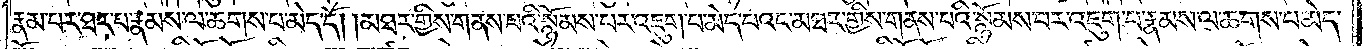རྣམ་པར་ཐར་པ་རྣམས་ལ་ཆགས་པ་མེད་དོ། །མཐར་གྱིས་གནས་པའི་སྙོམས་པར་འཇུག་པ་མེད་པའང་མཐར་གྱིས་གནས་པའི་སྙོམས་པར་འཇུག་པ་རྣམས་ལ་ཆགས་པ་མེད་
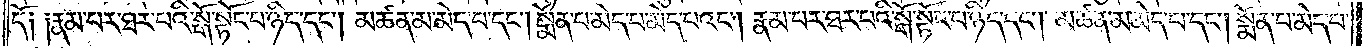དོ༑ ༑རྣམ་པར་ཐར་པའི་སྒོ་སྟོང་པ་ཉིད་དང༌། མཚན་མ་མེད་པ་དང༌། སྨོན་པ་མེད་པ་མེད་པའང༌། རྣམ་པར་ཐར་པའི་སྒོ་སྟོང་པ་ཉིད་དང༌། མཚན་མ་མེད་པ་དང༌། སྨོན་པ་མེད་པ་
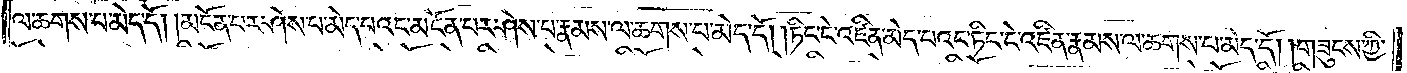ལ་ཆགས་པ་མེད་དོ། །མངོན་པར་ཤེས་པ་མེད་པའང་མངོན་པར་ཤེས་པ་རྣམས་ལ་ཆགས་པ་མེད་དོ། །ཏིང་ངེ་འཛིན་མེད་པའང་ཏིང་དེ་འཛིན་རྣམས་ལ་ཆགས་པ་མེད་དོ། །གཟུངས་ཀྱི་
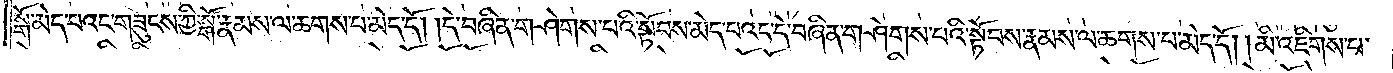སྒོ་མེད་པའང་གཟུངས་ཀྱི་སྒོ་རྣམས་ལ་ཆགས་པ་མེད་དོ། །དེ་བཞིན་གཤེགས་པའི་སྟོབས་མེད་པའང་དེ་བཞིན་གཤེགས་པའི་སྟོབས་རྣམས་ལ་ཆགས་པ་མེད་དོ། །མི་འཇིགས་པ་
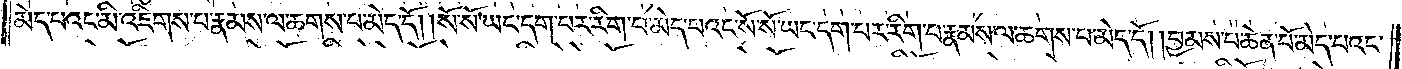མེད་པའང་མི་འཇིགས་པ་རྣམས་ལ་ཆགས་པ་མེད་དོ། །སོ་སོ་ཡང་དག་པར་རིག་པ་མེད་པའང་སོ་སོ་ཡང་དག་པར་རིག་པ་རྣམས་ལ་ཆགས་པ་མེད་དོ། །བྱམས་པ་ཆེན་པོ་མེད་པའང་
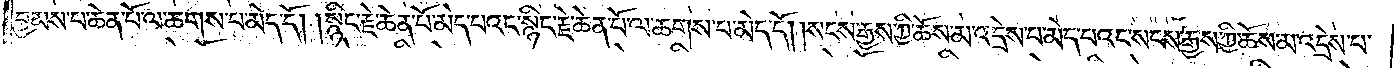བྱམས་པ་ཆེན་པོ་ལ་ཆགས་པ་མེད་དོ། །སྙིང་རྗེ་ཆེན་པོ་མེད་པའང་སྙིང་རྗེ་ཆེན་པོ་ལ་ཆགས་པ་མེད་དོ། །སངས་རྒྱས་ཀྱི་ཆོས་མ་འདྲེས་པ་མེད་པའང་སངས་རྒྱས་ཀྱི་ཆོས་མ་འདྲེས་པ་
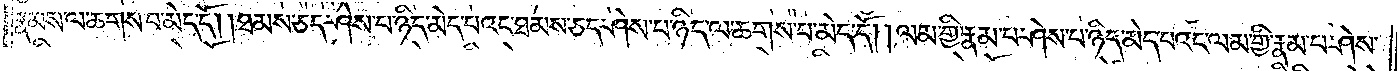རྣམས་ལ་ཆགས་པ་མེད་དོ། །ཐམས་ཅད་ཤེས་པ་ཉིད་མེད་པའང་ཐམས་ཅད་ཤེས་པ་ཉིད་ལ་ཆགས་པ་མེད་དོ། །ལམ་གྱི་རྣམ་པ་ཤེས་པ་ཉིད་མེད་པའང་ལམ་གྱི་རྣམ་པ་ཤེས་
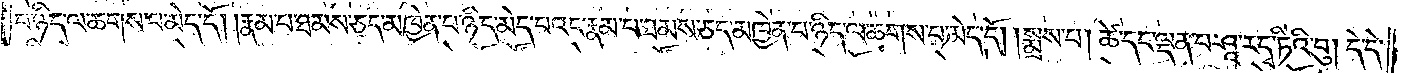པ་ཉིད་ལ་ཆགས་པ་མེད་དོ། །རྣམ་པ་ཐམས་ཅད་མཁྱེན་པ་ཉིད་མེད་པའང་རྣམ་པ་ཐམས་ཅད་མཁྱེན་པ་ཉིད་ལ་ཆགས་པ་མེད་དོ། །སྨྲས་པ། ཚེ་དང་ལྡན་པ་ཤཱ་ར་དྭ་ཏིའི་བུ། དེ་དེ་
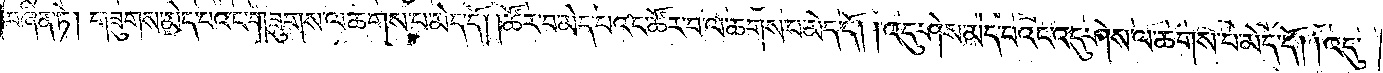བཞིན་ཏེ། གཟུགས་མེད་པའང་གཟུགས་ལ་ཆགས་པ་མེད་དོ། །ཚོར་བ་མེད་པའང་ཚོར་བ་ལ་ཆགས་པ་མེད་དོ། །འདུ་ཤེས་མེད་པའང་འདུ་ཤེས་ལ་ཆགས་པ་མེད་དོ། །འདུ་
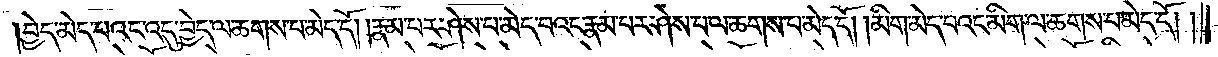བྱེད་མེད་པའང་འདུ་བྱེད་ལ་ཆགས་པ་མེད་དོ། །རྣམ་པར་ཤེས་པ་མེད་པའང་རྣམ་པར་ཤེས་པ་ལ་ཆགས་པ་མེད་དོ། །མིག་མེད་པའང་མིག་ལ་ཆགས་པ་མེད་དོ། །
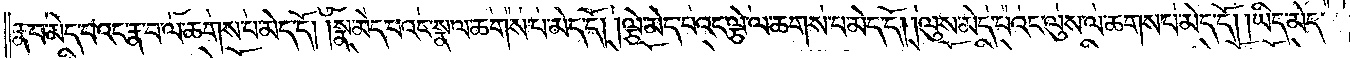རྣ་བ་མེད་པའང་རྣ་བ་ལ་ཆགས་པ་མེད་དོ། །སྣ་མེད་པའང་སྣ་ལ་ཆགས་པ་མེད་དོ། །ལྕེ་མེད་པའང་ལྕེ་ལ་ཆགས་པ་མེད་དོ། །ལུས་མེད་པའང་ལུས་ལ་ཆགས་པ་མེད་དོ། །ཡིད་མེད་
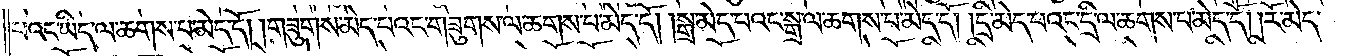པའང་ཡིད་ལ་ཆགས་པ་མེད་དོ། །གཟུགས་མེད་པའང་གཟུགས་ལ་ཆགས་པ་མེད་དོ། །སྒྲ་མེད་པའང་སྒྲ་ལ་ཆགས་པ་མེད་དོ། །དྲི་མེད་པའང་དྲི་ལ་ཆགས་པ་མེད་དོ། །རོ་མེད་
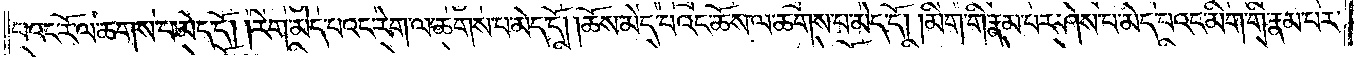པའང་རོ་ལ་ཆགས་པ་མེད་དོ། །རེག་མེད་པའང་རེག་ལ་ཆགས་པ་མེད་དོ། །ཆོས་མེད་པའང་ཆོས་ལ་ཆགས་པ་མེད་དོ། །མིག་གི་རྣམ་པར་ཤེས་པ་མེད་པའང་མིག་གི་རྣམ་པར་
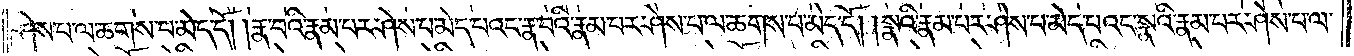ཤེས་པ་ལ་ཆགས་པ་མེད་དོ། །རྣ་བའི་རྣམ་པར་ཤེས་པ་མེད་པའང་རྣ་བའི་རྣམ་པར་ཤེས་པ་ལ་ཆགས་པ་མེད་དོ། །སྣའི་རྣམ་པར་ཤེས་པ་མེད་པའང་སྣའི་རྣམ་པར་ཤེས་པ་ལ་
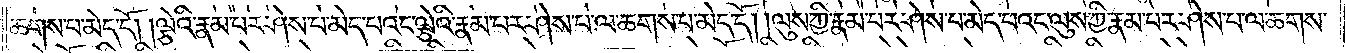ཆགས་པ་མེད་དོ། །ལྕེའི་རྣམ་པར་ཤེས་པ་མེད་པའང་ལྕེའི་རྣམ་པར་ཤེས་པ་ལ་ཆགས་པ་མེད་དོ། །ལུས་ཀྱི་རྣམ་པར་ཤེས་པ་མེད་པའང་ལུས་ཀྱི་རྣམ་པར་ཤེས་པ་ལ་ཆགས་
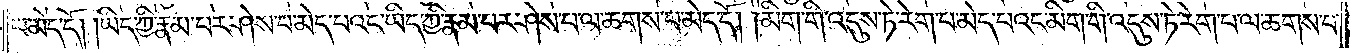པ་མེད་དོ། །ཡིད་ཀྱི་རྣམ་པར་ཤེས་པ་མེད་པའང་ཡིད་ཀྱི་རྣམ་པར་ཤེས་པ་ལ་ཆགས་པ་མེད་དོ། །མིག་གི་འདུས་ཏེ་རེག་པ་མེད་པའང་མིག་གི་འདུས་ཏེ་རེག་པ་ལ་ཆགས་པ་
